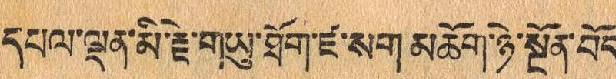དཔལ་ལྡན་མི་རྗེ་གཡུ་ཐོག་ཛ་སག་མཆོག་ཉེ་སྔོན་བོད་
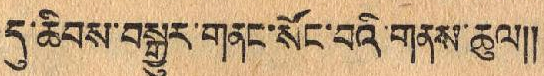དུ་ཆིབས་བསྒྱུར་གནང་སོང་བའི་གནས་ཆུལ།།
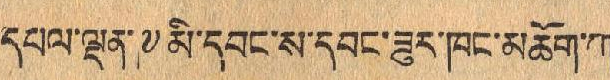དཔལ་ལྡན་༸མི་དབང་ས་དབང་ཟུར་ཁང་མཆོག་ཀ་
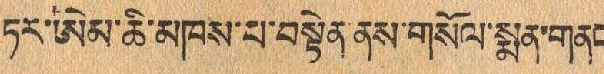ཏར་ཨེམ་ཆི་མཁས་པ་བསྟེན་ནས་གསོལ་སྨན་གནང་
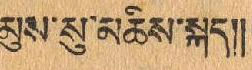མུས་སུ་མཆིས་སྐད།།
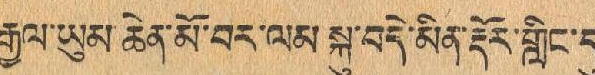རྒྱལ་ཡུམ་ཆེན་མོ་བར་ལམ་སྐུ་བདེ་མིན་རྡོར་གླིང་དུ་
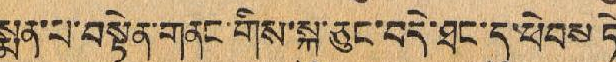སྨན་པ་བསྟེན་གནང་གིས་སྐུ་ཅུང་བདེ་ཐང་དུ་ཕེབས་ཏེ་
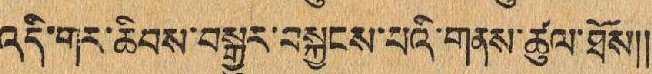འདི་གར་ཆིབས་བསྒྱུར་བསྐྱངས་པའི་གནས་ཚུལ་ཐོས།།
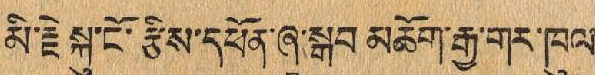མི་རྗེ སྐུ་ངོ་རྩིས་དཕོན་ཞྭ་སྒབ་མཆོག་རྒྱ་གར་ཁུལ་
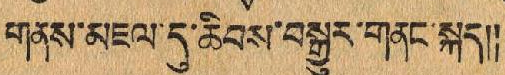གནས་མཇལ་དུ་ཆིབས་བསྒྱུར་གནང་སྐད།།
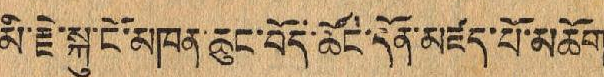མི་རྗེ་སྐུ་ངོ་མཁན་ཆུང་བོད་ཚོང་དོན་མཛད་པོ་མཆོག་
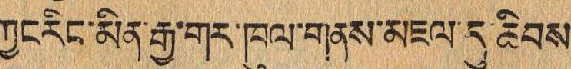ཀྱང་རིང་མིན་རྒྱ་གར་ཁུལ་གནས་མཇལ་དུ་ཆིབས་
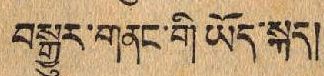བསྒྱུར་གནང་གི་ཡོད་སྐད།
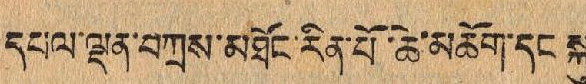དཔལ་ལྡན་བཀྲས་མཐོང་རིན་པོ་ཆེ་མཆོག་དང་སྐུ་
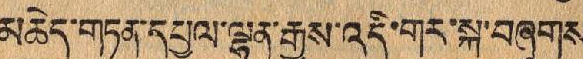མཆེད་གཏན་དཔྱལ་ལྷན་རྒྱས་འདི་གར་སྐུ་བཞུགས་
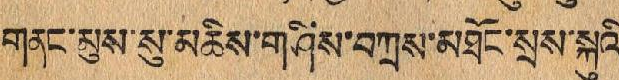གནང་མུས་སུ་མཆིས་གཤིས་བཀྲས་མཐོང་སྲས་སྐུའི་
